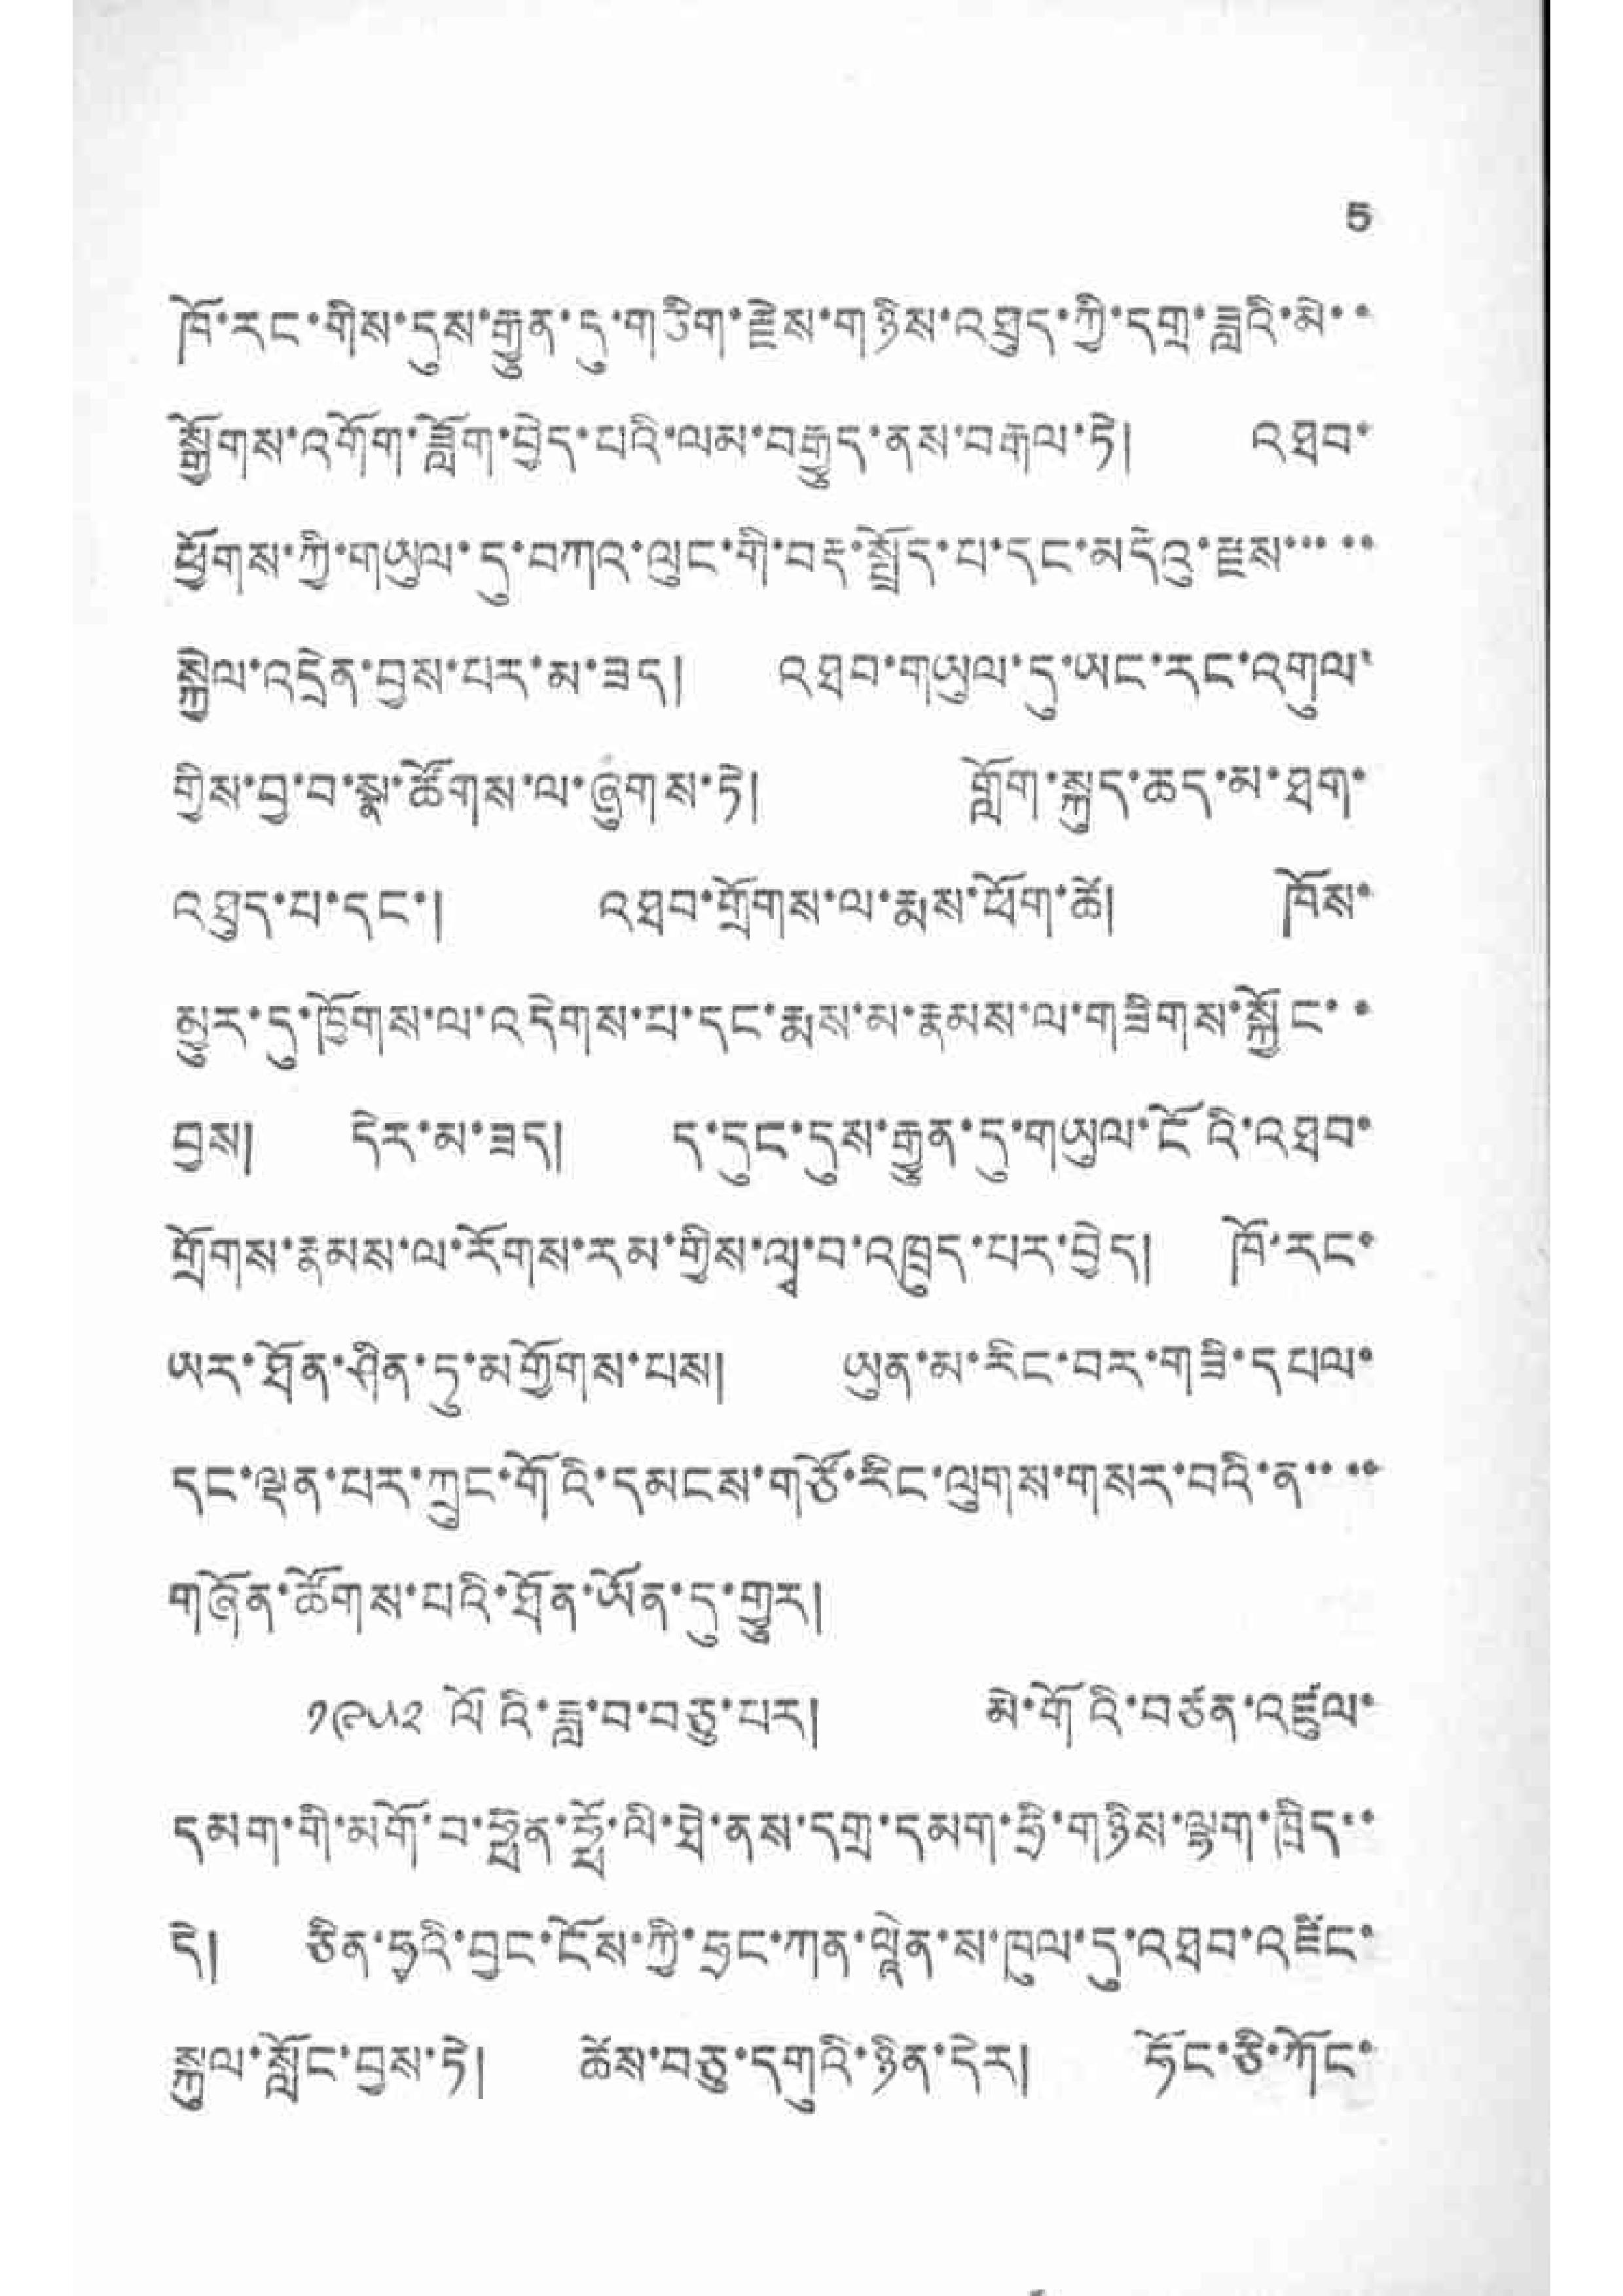5
ཁོ་རང་གིས་དུས་རྒྱུན་དུ་གཅིག་རྗེས་གཉིས་འཐུད་ཀྱི་དགྲ་ཟླའི་མེ་་
སྒྱོགས་འགོག་ཟློག་བྱེད་པའི་ལམ་བརྒྱུད་ནས་བརྒལ་ཏེ། འཐབ་
ཕྱོགས་ཀྱི་གཡུལ་དུ་བཀའ་ལུང་གི་བརྡ་སྤྱོད་པ་དང་མདེའུ་རྫས་་་་་
སྐྱེལ་འདྲེན་བྱས་པར་མ་ཟད། འཐབ་གཡུལ་དུ་ཡང་རང་འགུལ་
གྱིས་བྱ་བ་སྣ་ཚོགས་ལ་ཞུགས་ཏེ། གློག་སྐྱད་ཆད་མ་ཐག་
འཐུད་པ་དང་། འཐབ་གྲོགས་ལ་རྨས་ཕོག་ཚེ། ཁོས་
མྱུར་དུ་ཁྱོགས་ལ་འདེགས་པ་དང་རྨས་མ་རྣམས་ལ་གཟིགས་སྐྱོང་་
བྱས། དེར་མ་ཟད། ད་དུང་དུས་རྒྱུན་དུ་གཡུལ་ངོའི་འཐབ་
གྲོགས་རྣམས་ལ་རོགས་རམ་གྱིས་ལྭ་བ་འཁྲུད་པར་བྱེད། ཁོ་རང་
ཡད་ཐོན་ཤིན་ཏུ་མགྱོགས་པས། ཡུན་མ་རིང་བར་གཟི་དཔལ་
དང་ལྡན་པར་ཀྲུང་གོའི་དམངས་གཙོ་རིང་ལུགས་གསར་བའི་ན་་་་
གཞོན་ཚོགས་པའི་ཐོན་ཡོན་དུ་གྱུར།
༡༩༥༢ ལོའི་ཟླ་བ་བཅུ་པར། མེ་གོའི་བཙན་འཛུལ་
དམག་གི་མགོ་བ་ཧྥན་ཧྥོ་ལི་ཐེ་ནས་དགྲ་དམག་ཧྲི་གཉིས་ལྷག་ཁྲིད་་
དེ། ཅིན་ཧྭའི་བྱང་ངོས་ཀྱི་ཧྲང་ཀན་ལཱེན་ས་ཁུལ་དུ་འཐབ་འཛིང་
སྐུལ་སློང་བྱས་ཏེ། ཚེས་བཅུ་དགུའི་ཉིན་དེར། ཧོང་ཅི་ཀོང་
